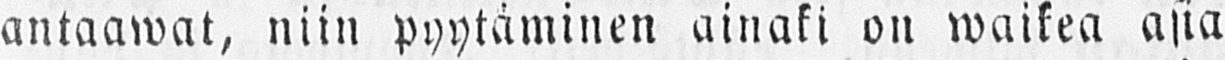antaawat, niin pyytäminen ainaki on waikea asia
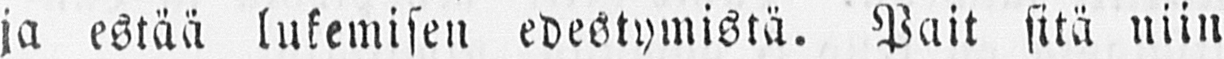ja estää lukemisen edestymistä. Pait sitä niin
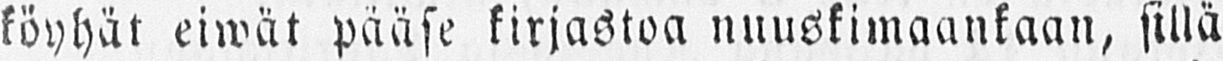köyhät eiwät pääse kirjastoa nuuskimaankaan, sillä
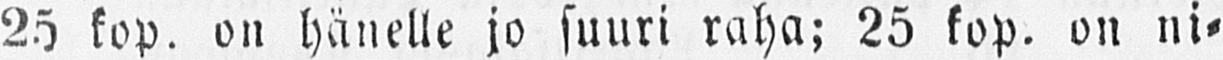25 kop. on hänelle jo suuri raha; 25 kop. on ni-
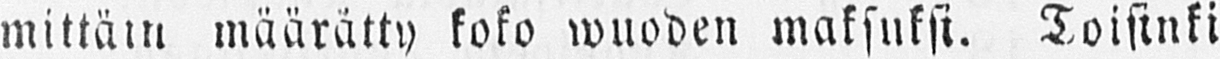mittäin määrätty koko wuoden maksuksi. Toisinki
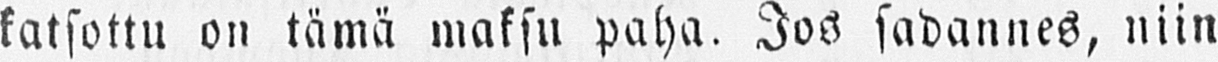katsottu on tämä maksu paha. Jos sadannes, niin
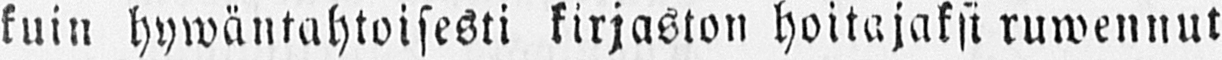kuin hywäntahtoisesti kirjaston hoitajaksi ruwennut
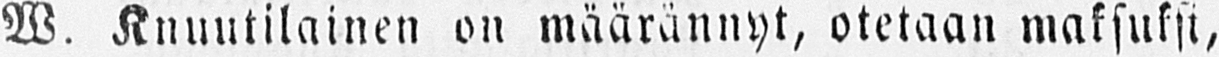W. Knuutilainen on määrännyt, otetaan maksuksi,
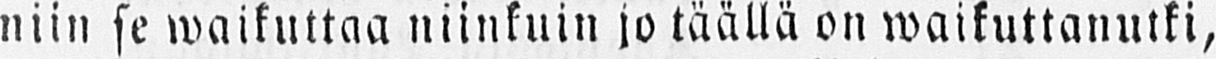niin se waikuttaa niinkuin jo täällä on waikuttanutki,
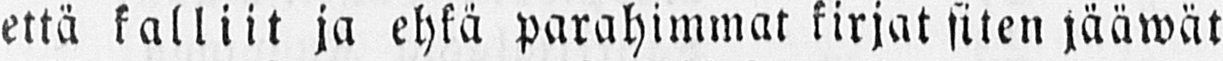että kalliit ja ehkä parahimmat kirjat siten jääwät
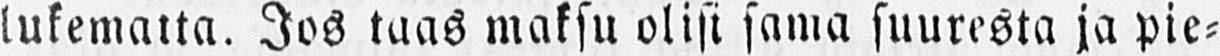lukematta. Jos taas maksu olisi sama suuresta ja pie-
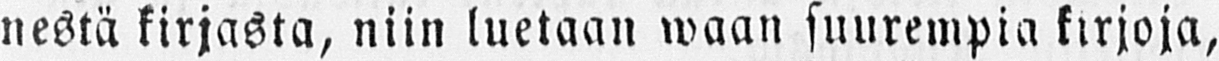nestä kirjasta, niin luetaan waan suurempia kirjoja,
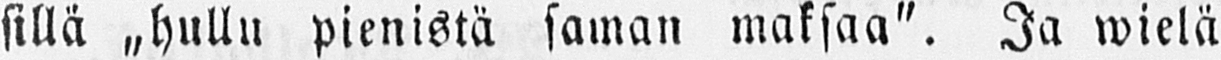sillä „hullu pienistä saman maksaa". Ja wielä
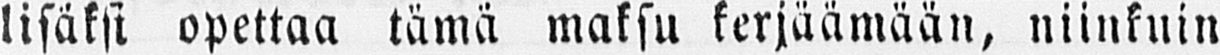lisäksi opettaa tämä maksu kerjäämään, niinkuin
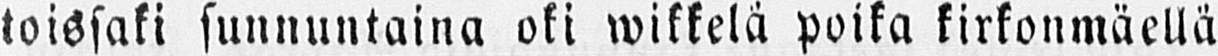toissaki sunnuntaina oki wikkelä poika kirkonmäellä
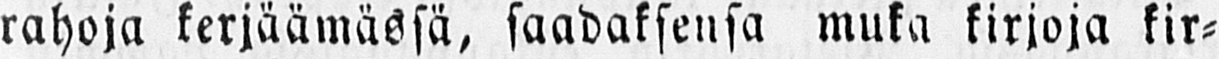rahoja kerjäämässä, saaduksensa muka kirjoja kir-
